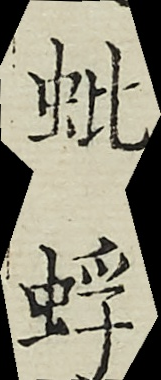蚍蜉
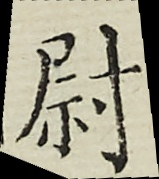尉
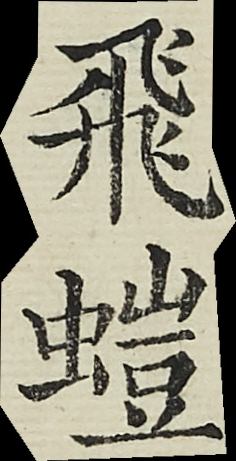飛螘
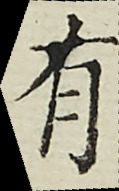有
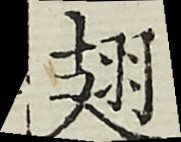翅
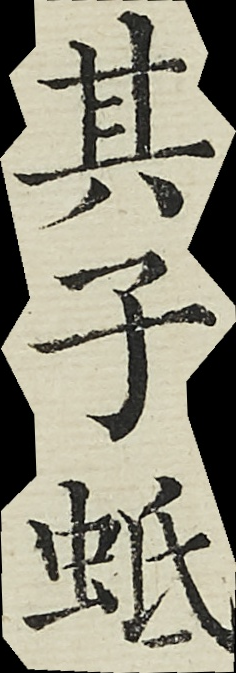其子蚳
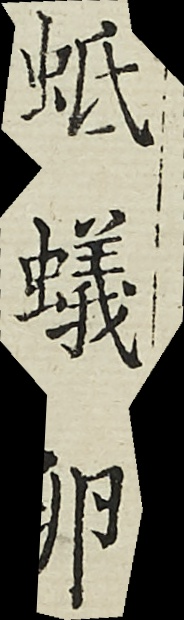蚳蟻卵
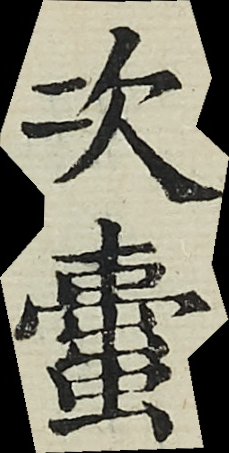次蟗
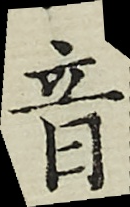音
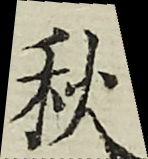秋
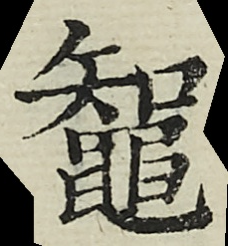鼅
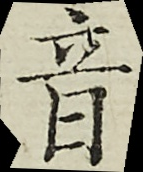音
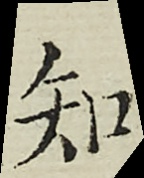知
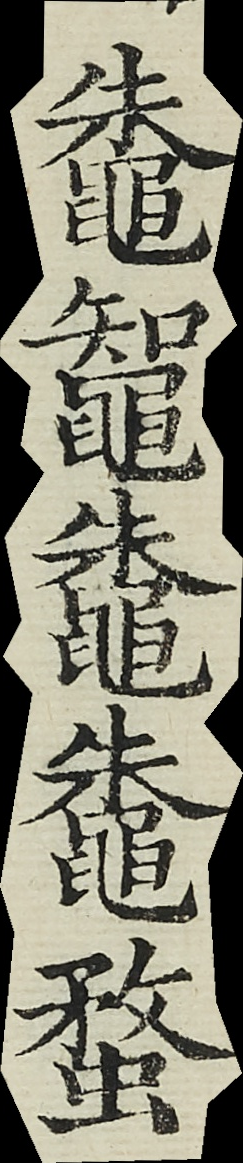鼄鼅鼄鼄蝥
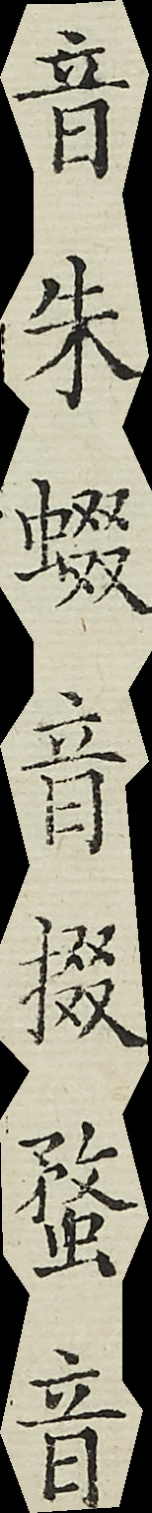音朱蝃音掇蝥音
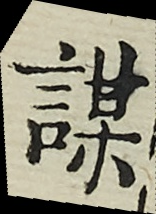謀
